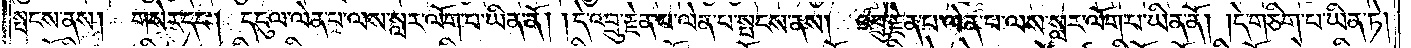སྤངས་ནས། གསེར་དང༌། དངུལ་ལེན་པ་ལས་སླར་ལོག་པ་ཡིན་ནོ། །དེ་འབྲུ་རྗེན་པ་ལེན་པ་སྤངས་ནས། འབྲུ་རྗེན་པ་ལེན་པ་ལས་སླར་ལོག་པ་ཡིན་ནོ། །དེ་གཅིག་པ་ཡིན་ཏེ།
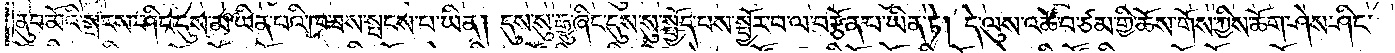ནུབ་མོའི་སྤངས་ཤིང་དུས་མ་ཡིན་པའི་ཁ་ཟས་སྤངས་པ་ཡིན། དུས་སུ་རྒྱུ་ཞིང་དུས་སུ་སྤྱོད་པས་སྦྱོར་བ་ལ་བརྩོན་པ་ཡིན་ཏེ། དེ་ལུས་འཚོ་བ་ཙམ་གྱི་ཆོས་གོས་ཀྱིས་ཆོག་ཤེས་ཤིང་
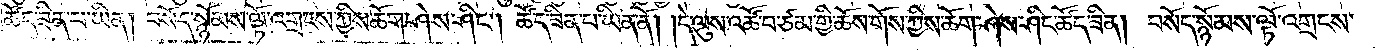ཚོད་ཟིན་པ་ཡིན། བསོད་སྙོམས་ལྟོ་འགྲངས་ཀྱིས་ཆོག་ཤེས་ཤིང༌། ཚོད་ཟིན་པ་ཡིན་ནོ། །དེ་ལུས་འཚོ་བ་ཙམ་གྱི་ཆོས་གོས་ཀྱིས་ཆོག་ཤེས་ཤིང་ཚོད་ཟིན། བསོད་སྙོམས་ལྟོ་འགྲངས་
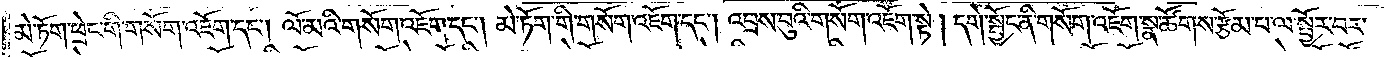མེ་ཏོག་ཕྲེང་གི་གསོག་འཇོག་དང༌། ལོ་མའི་གསོག་འཇོག་དང༌། མེ་ཏོག་གི་གསོག་འཇོག་དང༌། འབྲས་བུའི་གསོག་འཇོག་སྟེ། དགེ་སྦྱོང་གི་གསོག་འཇོག་སྣ་ཚོགས་རྩོམ་པ་ལ་སྦྱོར་བར་
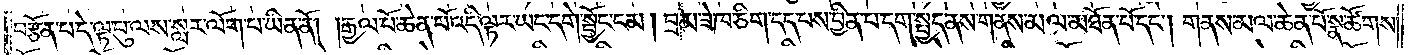བརྩོན་པ་དེ་ལྟ་བུ་ལས་སླར་ལོག་པ་ཡིན་ནོ། །རྒྱལ་པོ་ཆེན་པོ་འདི་ལྟར་ཡང་དགེ་སྦྱོང་ངམ། བྲམ་ཟེ་ཁ་ཅིག་དད་པས་བྱིན་པ་དག་སྤྱད་ནས་གནས་མལ་མཐོན་པོ་དང༌། གནས་མལ་ཆེན་པོ་སྣ་ཚོགས་
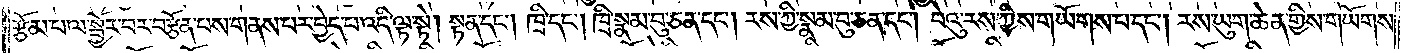རྩོམ་པ་ལ་སྦྱོར་བར་བརྩོན་པས་གནས་པར་བྱེད་པ་འདི་ལྟ་སྟེ། སྟན་དང༌། ཁྲི་དང༌། ཁྲི་སྣམ་བུ་ཅན་དང༌། རས་ཀྱི་སྣམ་བུ་ཅན་དང༌། བེའུ་རས་ཀྱིས་གཡོགས་པ་དང༌། རས་ཡུག་ཆེན་གྱིས་གཡོགས་
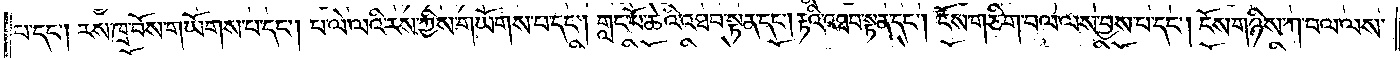པ་དང༌། རས་ཁྲ་བོས་གཡོགས་པ་དང༌། པ་ལེ་ལའི་རས་ཀྱིས་གཡོགས་པ་དང༌། གླང་པོ་ཆེའི་འཐབ་སྟན་དང༌། རྟའི་འཐབ་སྟན་དང༌། ངོས་གཅིག་བལ་ལས་བྱས་པ་དང༌། ངོས་གཉིས་ཀ་བལ་ལས་
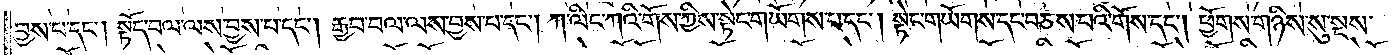བྱས་པ་དང༌། སྟོད་བལ་ལས་བྱས་པ་དང༌། རྒྱབ་བལ་ལས་བྱས་པ་དང༌། ཀ་ལིང་ཀའི་གོས་ཀྱིས་སྟེང་གཡོགས་པ་དང༌། སྟེང་གཡོགས་དང་བཅས་པའི་གོས་དང༌། ཕྱོགས་གཉིས་སུ་སྔས་
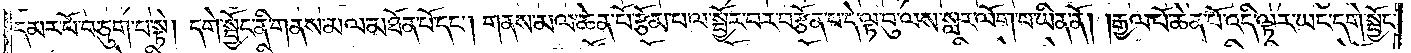དམར་པོ་བཅུག་པ་སྟེ། དགེ་སྦྱོང་ནི་གནས་མལ་མཐོན་པོ་དང༌། གནས་མལ་ཆེན་པོ་རྩོམ་པ་ལ་སྦྱོར་བར་བརྩོན་པ་དེ་ལྟ་བུ་ལས་སླར་ལོག་པ་ཡིན་ནོ། །རྒྱལ་པོ་ཆེན་པོ་འདི་ལྟར་ཡང་དགེ་སྦྱོང་
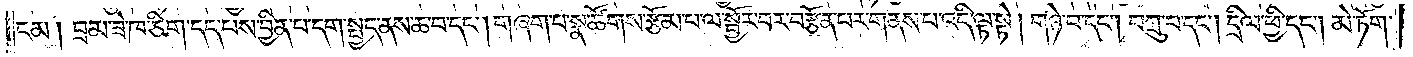ངམ། བྲམ་ཟེ་ཁ་ཅིག་དད་པས་བྱིན་པ་དག་སྤྱད་ནས་ཆ་བ་དང༌། གཞག་པ་སྣ་ཚོགས་རྩོམ་པ་ལ་སྦྱོར་བར་བརྩོན་པར་གནས་པ་འདི་ལྟ་སྟེ། གཉེ་བ་དང༌། བཀྲུ་བ་དང༌། དྲིལ་ཕྱི་དང༌། མེ་ཏོག་
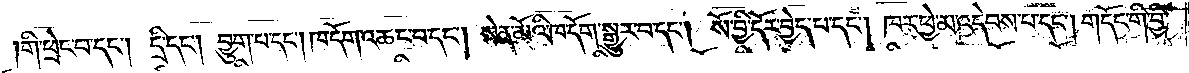གི་ཕྲེང་བ་དང༌། དྲི་དང༌། བྱུག་པ་དང༌། ཁ་དོག་འཆང་བ་དང༌། སེན་མོའི་ཁ་དོག་སྒྱུར་བ་དང༌། སོ་བྱི་དོར་བྱེད་པ་དང༌། ཁར་ཕྱེ་མ་འདེབས་པ་དང༌། གདོང་གི་བྱི་
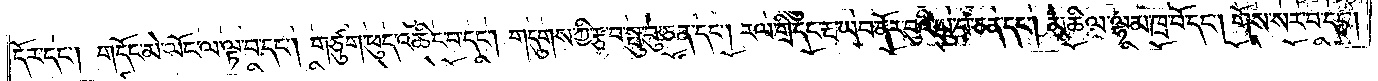དོར་དང༌། གདོང་མེ་ལོང་ལ་ལྟ་བ་དང༌། གཙུག་ཕུད་འཆིང་བ་དང༌། གདུགས་ཀྱི་རྩ་བ་སྤུ་བུ་ཅན་དང༌། རལ་གྲི་དང་རྔ་ཡབ་ནོར་བུའི་ཡུ་བ་ཅན་དང༌། མཆིལ་ལྷམ་ཁྲ་བོ་དང༌། གོས་སར་བ་དང༌།
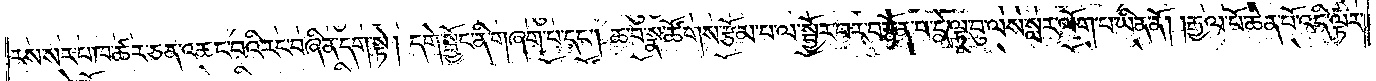རས་སར་པ་ཁ་ཚར་ཅན་འཆང་བའི་རང་བཞིན་དག་སྟེ། དགེ་སྦྱོང་ནི་གཞག་པ་དང༌། ཆ་བ་སྣ་ཚོགས་རྩོམ་པ་ལ་སྦྱོར་བར་བརྩོན་པ་དེ་ལྟ་བུ་ལས་སླར་ལོག་པ་ཡིན་ནོ། །རྒྱལ་པོ་ཆེན་པོ་འདི་ལྟར་
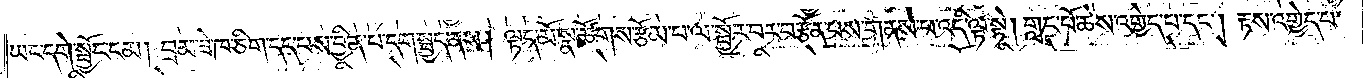ཡང་དགེ་སྦྱོང་ངམ། བྲམ་ཟེ་ཁ་ཅིག་དད་པས་བྱིན་པ་དག་སྤྱད་ནས། ལྟད་མོ་སྣ་ཚོགས་རྩོམ་པ་ལ་སྦྱོར་བར་བརྩོན་པས་གནས་པ་འདི་ལྟ་སྟེ། གླང་པོ་ཆེས་འགྱེད་པ་དང༌། རྟས་འགྱེད་པ་
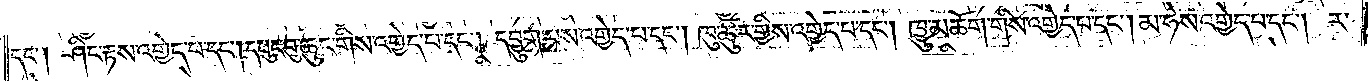དང༌། ཤིང་རྟས་འགྱེད་པ་དང༌། དཔུང་བུ་ཆུང་གིས་འགྱེད་པ་དང༌། དབྱུག་པས་འགྱེད་པ་དང༌། ཁུ་ཚུར་གྱིས་འགྱེད་པ་དང༌། ཁྱུ་མཆོག་གིས་འགྱེད་པ་དང༌། མ་ཧེས་འགྱེད་པ་དང༌། ར་
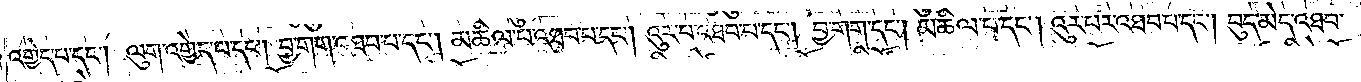འགྱེད་པ་དང༌། ལུག་འགྱེད་པ་དང༌། བྱ་གག་འཐབ་པ་དང༌། མཆིལ་པ་འཐབ་པ་དང༌། འུར་པ་འཐབ་པ་དང༌། བྱ་གག་དང༌། མཆིལ་པ་དང༌། འུར་བར་འཐབ་པ་དང༌། བུད་མེད་འཐབ་
